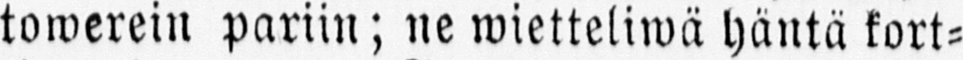towerein pariin; ne wietteliwä häntä kort-
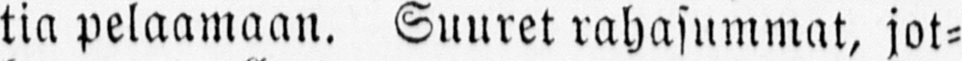tia pelaamaan. Suuret rahasummat, jot-
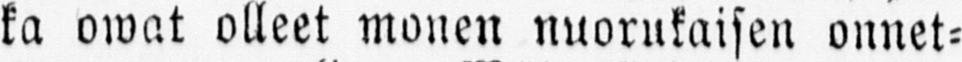ka owat olleet monen nuorukaisen onnet-
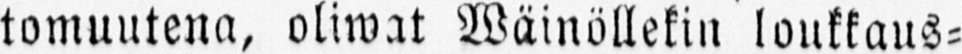tomuutena, oliwat Wäinöllekin loukkaus-
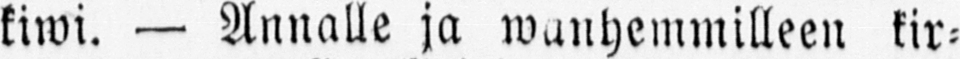kiwi. — Annalle ja wanhemmilleen kir-
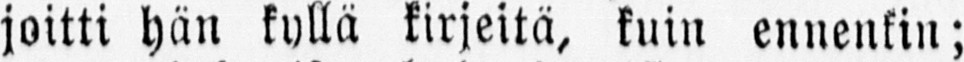joitti hän kyllä kirjeitä, kuin ennenkin;
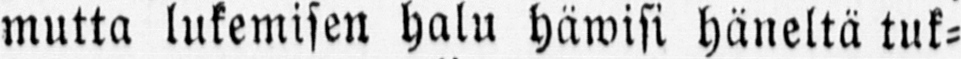mutta lukemisen halu häwisi häneltä tuk-
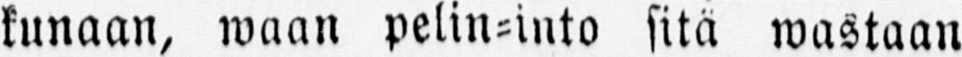kunaan, waan pelin-into sitä wastaan
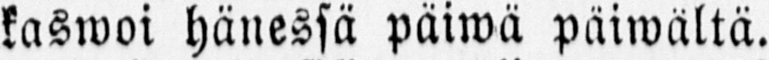kaswoi hänessä päiwä päiwältä.
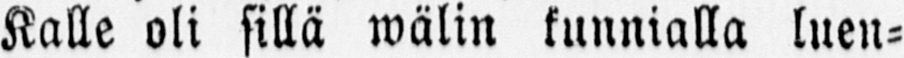Kalle oli sillä wälin kunnialla luen-
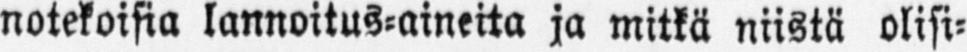notekoisia lannoitus-aineita ja mitkä niistä olisi-
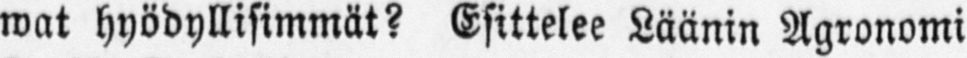wat hyödyllisimmät? Esittelee Läänin Agronomi
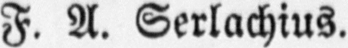F. A. Serlachius.
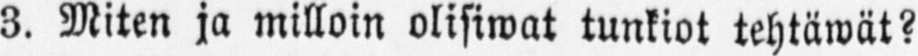3. Miten ja milloin olisiwat tunkiot tehtäwät?
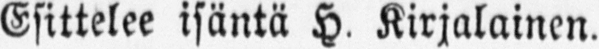Esittelee isäntä H. Kirjalainen.
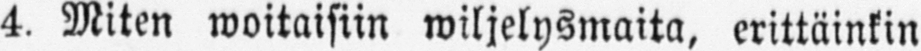4. Miten woitaisiin wiljelysmaita, erittäinkin
